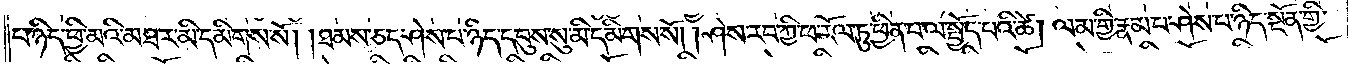པ་ཉིད་ཕྱི་མའི་མཐར་མི་དམིགས་སོ། །ཐམས་ཅད་ཤེས་པ་ཉིད་དབུས་སུ་མི་དམིགས་སོ། །ཤེས་རབ་ཀྱི་ཕ་རོལ་ཏུ་ཕྱིན་པ་ལ་སྤྱོད་པའི་ཚེ། ལམ་གྱི་རྣམ་པ་ཤེས་པ་ཉིད་སྔོན་གྱི་
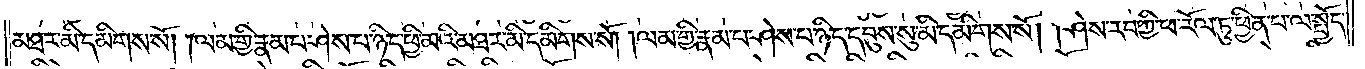མཐར་མི་དམིགས་སོ། །ལམ་གྱི་རྣམ་པ་ཤེས་པ་ཉིད་ཕྱི་མའི་མཐར་མི་དམིགས་སོ། །ལམ་གྱི་རྣམ་པ་ཤེས་པ་ཉིད་དབུས་སུ་མི་དམིགས་སོ། །ཤེས་རབ་ཀྱི་ཕ་རོལ་ཏུ་ཕྱིན་པ་ལ་སྤྱོད་
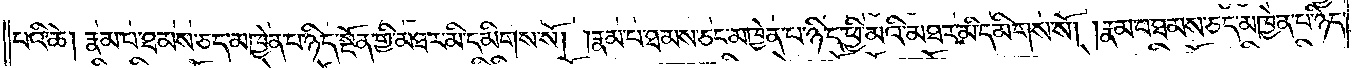པའི་ཚེ། རྣམ་པ་ཐམས་ཅད་མཁྱེན་པ་ཉིད་སྔོན་གྱི་མཐར་མི་དམིགས་སོ། །རྣམ་པ་ཐམས་ཅད་མཁྱེན་པ་ཉིད་ཕྱི་མའི་མཐར་མི་དམིགས་སོ། །རྣམ་པ་ཐམས་ཅད་མཁྱེན་པ་ཉིད་
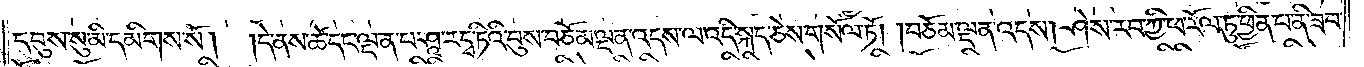དབུས་སུ་མི་དམིགས་སོ། །དེ་ནས་ཚེ་དང་ལྡན་པ་ཤཱ་རདྭ་ཏིའི་བུས་བཅོམ་ལྡན་འདས་ལ་འདི་སྐད་ཅེས་གསོལ་ཏོ། །བཅོམ་ལྡན་འདས། ཤེས་རབ་ཀྱི་ཕ་རོལ་ཏུ་ཕྱིན་པ་ནི་ཟབ་
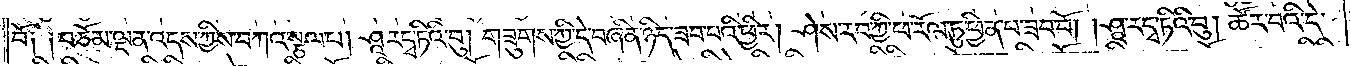བོ༑ ༑བཅོམ་ལྡན་འདས་ཀྱིས་བཀའ་སྩལ་པ། ཤཱ་རདྭ་ཏིའི་བུ། གཟུགས་ཀྱི་དེ་བཞིན་ཉིད་ཟབ་པའི་ཕྱིར། ཤེས་རབ་ཀྱི་ཕ་རོལ་ཏུ་ཕྱིན་པ་ཟབ་བོ། །ཤཱ་རདྭ་ཏིའི་བུ། ཚོར་བའི་དེ་
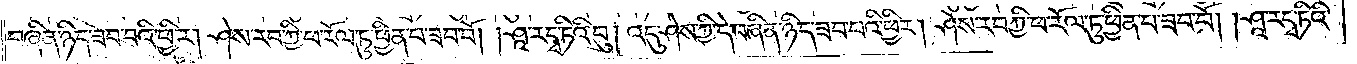བཞིན་ཉིད་ཟབ་པའི་ཕྱིར། ཤེས་རབ་ཀྱི་ཕ་རོལ་ཏུ་ཕྱིན་པ་ཟབ་བོ། །ཤཱ་ར་དྭ་ཏིའི་བུ། འདུ་ཤེས་ཀྱི་དེ་བཞིན་ཉིད་ཟབ་པའི་ཕྱིར། ཤེས་རབ་ཀྱི་ཕ་རོལ་ཏུ་ཕྱིན་པ་ཟབ་བོ། །ཤཱ་ར་དྭ་ཏིའི་
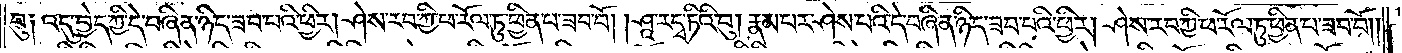བུ༑ འདུ་བྱེད་ཀྱི་དེ་བཞིན་ཉིད་ཟབ་པའི་ཕྱིར། ཤེས་རབ་ཀྱི་ཕ་རོལ་ཏུ་ཕྱིན་པ་ཟབ་བོ། །ཤཱ་ར་དྭ་ཏིའི་བུ། རྣམ་པར་ཤེས་པའི་དེ་བཞིན་ཉིད་ཟབ་པའི་ཕྱིར། ཤེས་རབ་ཀྱི་ཕ་རོལ་ཏུ་ཕྱིན་པ་ཟབ་བོ། །
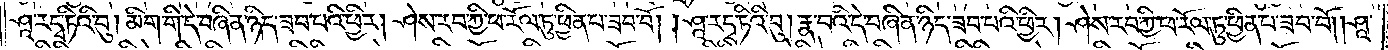ཤཱ་ར་དྭ་ཏིའི་བུ། མིག་གི་དེ་བཞིན་ཉིད་ཟབ་པའི་ཕྱིར། ཤེས་རབ་ཀྱི་ཕ་རོལ་ཏུ་ཕྱིན་པ་ཟབ་བོ། །ཤཱ་ར་དྭ་ཏིའི་བུ། རྣ་བའི་དེ་བཞིན་ཉིད་ཟབ་པའི་ཕྱིར། ཤེས་རབ་ཀྱི་ཕ་རོལ་ཏུ་ཕྱིན་པ་ཟབ་བོ། །ཤཱ་
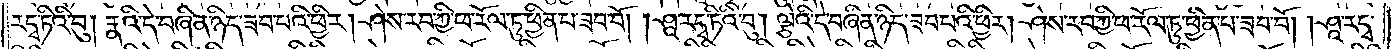ར་དྭ་ཏིའི་བུ། སྣའི་དེ་བཞིན་ཉིད་ཟབ་པའི་ཕྱིར། ཤེས་རབ་ཀྱི་ཕ་རོལ་ཏུ་ཕྱིན་པ་ཟབ་བོ། །ཤཱ་ར་དྭ་ཏིའི་བུ། ལྕེའི་དེ་བཞིན་ཉིད་ཟབ་པའི་ཕྱིར། ཤེས་རབ་ཀྱི་ཕ་རོལ་ཏུ་ཕྱིན་པ་ཟབ་བོ། །ཤཱ་ར་དྭ་
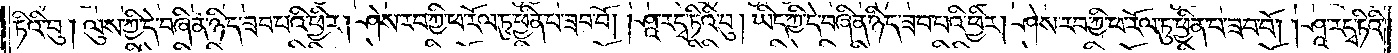ཏིའི་བུ། ལུས་ཀྱི་དེ་བཞིན་ཉིད་ཟབ་པའི་ཕྱིར། ཤེས་རབ་ཀྱི་ཕ་རོལ་ཏུ་ཕྱིན་པ་ཟབ་བོ། །ཤཱ་ར་དྭ་ཏིའི་བུ། ཡིད་ཀྱི་དེ་བཞིན་ཉིད་ཟབ་པའི་ཕྱིར། ཤེས་རབ་ཀྱི་ཕ་རོལ་ཏུ་ཕྱིན་པ་ཟབ་བོ། །ཤཱ་ར་དྭ་ཏིའི་
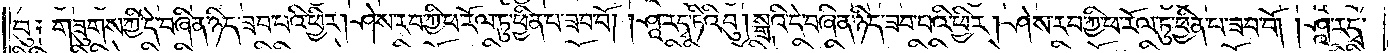བུ༑ གཟུགས་ཀྱི་དེ་བཞིན་ཉིད་ཟབ་པའི་ཕྱིར། ཤེས་རབ་ཀྱི་ཕ་རོལ་ཏུ་ཕྱིན་པ་ཟབ་བོ། །ཤཱ་ར་དྭ་ཏིའི་བུ། སྒྲའི་དེ་བཞིན་ཉིད་ཟབ་པའི་ཕྱིར། ཤེས་རབ་ཀྱི་ཕ་རོལ་ཏུ་ཕྱིན་པ་ཟབ་བོ། །ཤཱ་ར་དྭ་
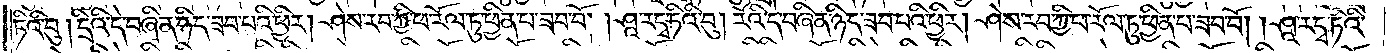ཏིའི་བུ། དྲིའི་དེ་བཞིན་ཉིད་ཟབ་པའི་ཕྱིར། ཤེས་རབ་ཀྱི་ཕ་རོལ་ཏུ་ཕྱིན་པ་ཟབ་བོ། །ཤཱ་ར་དྭ་ཏིའི་བུ། རོའི་དེ་བཞིན་ཉིད་ཟབ་པའི་ཕྱིར། ཤེས་རབ་ཀྱི་ཕ་རོལ་ཏུ་ཕྱིན་པ་ཟབ་བོ། །ཤཱ་ར་དྭ་ཏིའི་
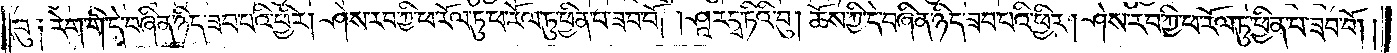བུ༑ རེག་གི་དེ་བཞིན་ཉིད་ཟབ་པའི་ཕྱིར། ཤེས་རབ་ཀྱི་ཕ་རོལ་ཏུ་ཕྱིན་པ་ཟབ་བོ། །ཤཱ་ར་དྭ་ཏིའི་བུ། ཆོས་ཀྱི་དེ་བཞིན་ཉིད་ཟབ་པའི་ཕྱིར། ཤེས་རབ་ཀྱི་ཕ་རོལ་ཏུ་ཕྱིན་པ་ཟབ་བོ། །
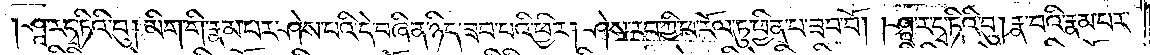ཤཱ་ར་དྭ་ཏིའི་བུ། མིག་གི་རྣམ་པར་ཤེས་པའི་དེ་བཞིན་ཉིད་ཟབ་པའི་ཕྱིར། ཤེས་རབ་ཀྱི་ཕ་རོལ་ཏུ་ཕྱིན་པ་ཟབ་བོ། །ཤཱ་ར་དྭ་ཏིའི་བུ། རྣ་བའི་རྣམ་པར་
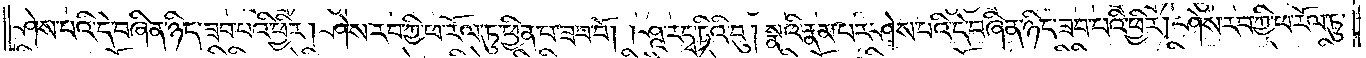ཤེས་པའི་དེ་བཞིན་ཉིད་ཟབ་པའི་ཕྱིར། ཤེས་རབ་ཀྱི་ཕ་རོལ་ཏུ་ཕྱིན་པ་ཟབ་བོ། །ཤཱ་ར་དྭ་ཏིའི་བུ། སྣའི་རྣམ་པར་ཤེས་པའི་དེ་བཞིན་ཉིད་ཟབ་པའི་ཕྱིར། ཤེས་རབ་ཀྱི་ཕ་རོལ་ཏུ་
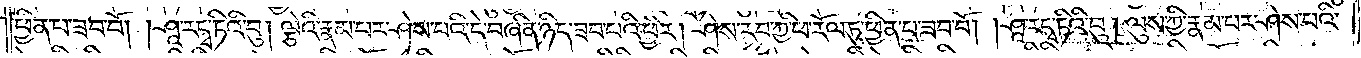ཕྱིན་པ་ཟབ་བོ། །ཤཱ་རདྭ་ཏིའི་བུ། ལྕེའི་རྣམ་པར་ཤེས་པའི་དེ་བཞིན་ཉིད་ཟབ་པའི་ཕྱིར། ཤེས་རབ་ཀྱི་ཕ་རོལ་ཏུ་ཕྱིན་པ་ཟབ་བོ། །ཤཱ་རདྭ་ཏིའི་བུ། ལུས་ཀྱི་རྣམ་པར་ཤེས་པའི་
